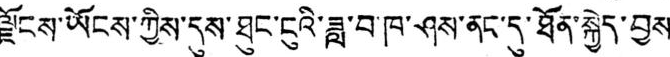ལྗོངས་ཡོངས་ཀྱིས་དུས་ཐུང་ངུའི་ཟླ་བ་ཁ་ཤས་ནང་དུ་ཐོན་སྐྱེད་བྱས་
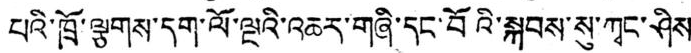པའི་ཁྲོ་ལྕགས་དག་ལོ་ལྔའི་འཆར་གཞི་དང་བོའི་སྐབས་སུ་ཀྭང་ཤིས
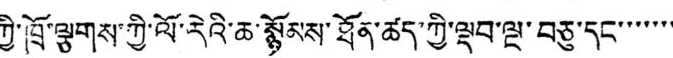ཀྱི་ཁྲོ་ལྕགས་ཀྱི་ལོ་རེའི་ཆ་སྙོམས་ཐོན་ཚད་ཀྱི་ལྡབ་ལྔ་བཅུ་དང་་་་་་་
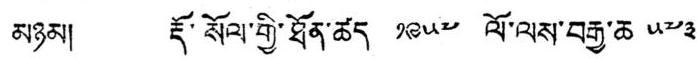མཉམ། རྡོ་སོལ་གྱི་ཐོན་ཚད ༡༩༥༧ ལོ་ལས་བརྒྱ་ཆ ༥༧༣
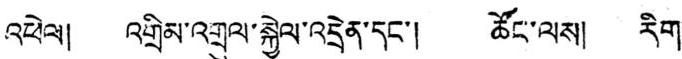འཕེལ། འགྲིམ་འགྲུལ་སྐྱེལ་འདྲེན་དང་། ཚོང་ལས། རིག་
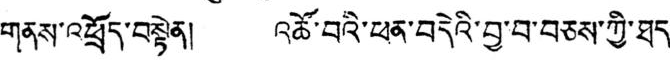གནས་འཕྲོད་བསྟེན། འཚོ་བའི་ཕན་བདེའི་བྱ་བ་བཅས་ཀྱི་ཐད་
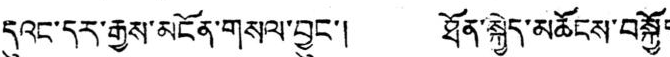དུའང་དར་རྒྱས་མངོན་གསལ་བྱུང་། ཐོན་སྐྱེད་མཆོངས་བསྐྱོད་
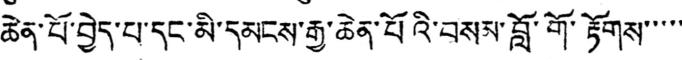ཆེན་པོ་བྱེད་པ་དང་མི་དམངས་རྒྱ་ཆེན་པོའི་བསམ་བློ་གོ་རྟོགས་་་་་
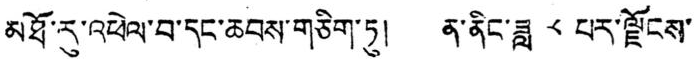མཐོ་རུ་འཕེལ་བ་དང་ཆབས་གཅིག་ཏུ། ན་ནིང་ཟླ ༨ པར་ལྗོངས་
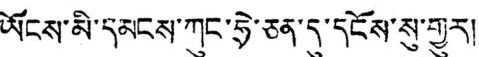ཡོངས་མི་དམངས་ཀུང་ཧྲེ་ཅན་དུ་དངོས་སུ་གྱུར།
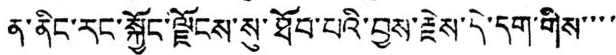ན་ནིང་རང་སྐྱོང་ལྗོངས་སུ་ཐོབ་པའི་བྱས་རྗེས་དེ་དག་གིས་་་་
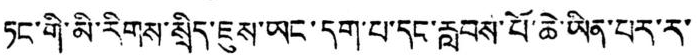ཏང་གི་མི་རིགས་སྲིད་ཇུས་ཡང་དག་པ་དང་རླབས་པོ་ཆེ་ཡིན་པར་ར་
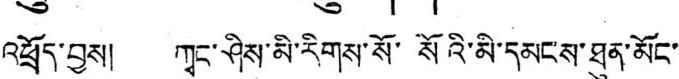འཕྲོད་བྱས། ཀྭང་ཤིས་མི་རིགས་སོ་སོའི་མི་དམངས་ཐུན་མོང་
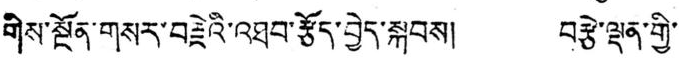གིས་སྔོན་གསར་བརྗེའི་འཐབ་རྩོད་བྱེད་སྐབས། བརྩེ་ལྡན་གྱི་
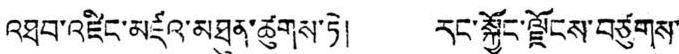འཐབ་འཛིང་མཛའ་མཐུན་ཚུགས་ཏེ། རང་སྐྱོང་ལྗོངས་བཙུགས་
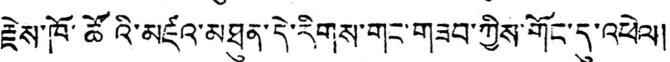རྗེས་ཁོ་ཚོའི་མཛའ་མཐུན་དེ་རིགས་གང་གཟབ་ཀྱིས་གོང་དུ་འཕེལ།
